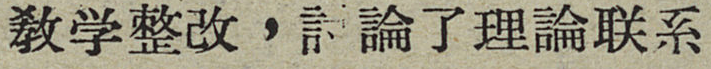敎学整改，討論了理論联系
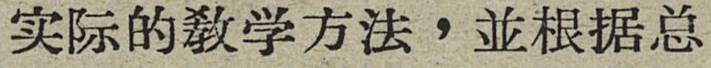世纪的敎学方法，並根据总
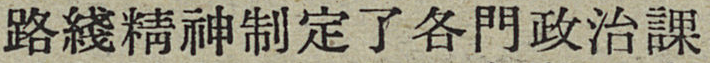路綫精神制定了各門政治課
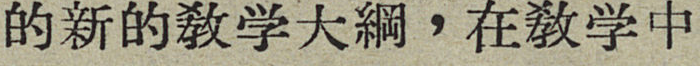的新的敎学大綱，在敎学中
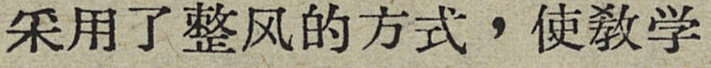采用了整风的方式，使敎学
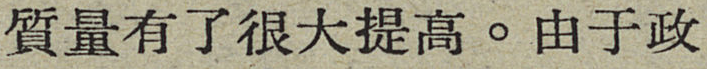質量有了很大提高。由于政
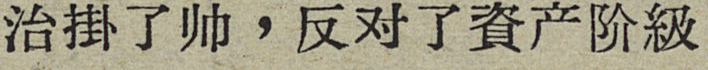治掛了帅，反对了資产阶級
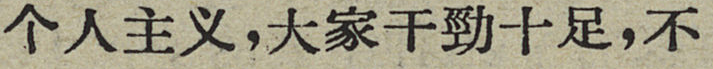个人主义，大家干勁十足，不
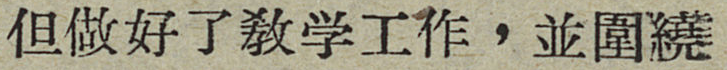但做好了敎学工作，並圍繞
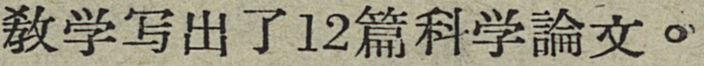敎学写出了12篇科学論文。
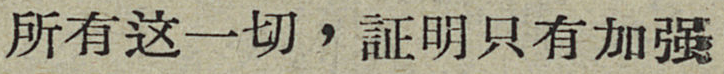所有这一切，証明只有加强
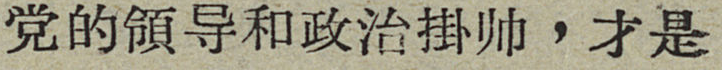党的領导和政治掛帅，才是
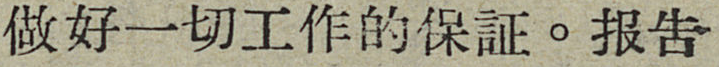做好一切工作的保証。报告
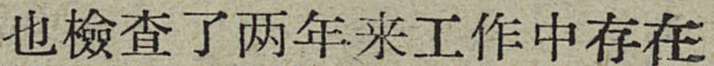也檢查了两年来工作中存在
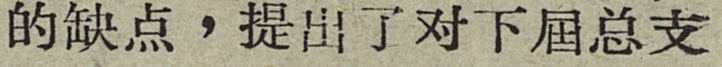的缺点，提出了对下屆总支
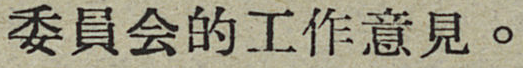委員会的工作意見。
